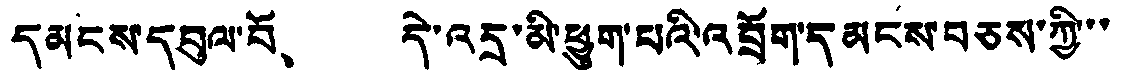དམངས་དབུལ་བོ、 དེ་འདྲ་མི་ཕྱུག་པའི་འབྲོག་དམངས་བཅས་ཀྱི་་
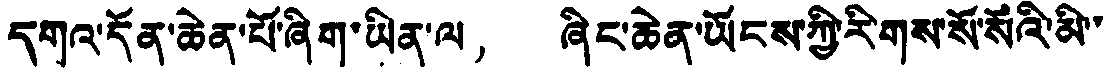དགའ་དོན་ཆེན་པོ་ཞིག་ཡིན་ལ， ཞིང་ཆེན་ཡོངས་ཀྱི་རིགས་སོ་སོའི་མི་་
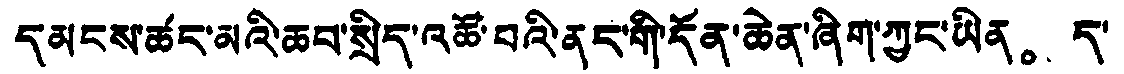དམངས་ཚང་མའི་ཆབ་སྲིད་འཚོ་བའི་ནང་གི་དོན་ཆེན་ཞིག་ཀྱང་ཡིན。 ད་
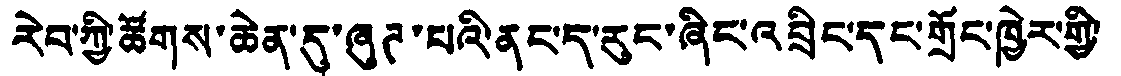རེབ་ཀྱི་ཚོགས་ཆེན་དུ་ཞུཊ་པའི་ནང་ད་རུང་ཞིང་འབྲིང་དང་གྲོང་ཁྱེར་གྱི་
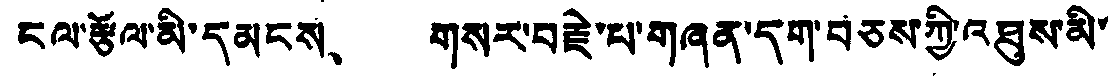ངལ་རྩོལ་མི་དམངས、 གསར་བརྗེ་པ་གཞན་དག་བཅས་ཀྱི་འཐུས་མི་
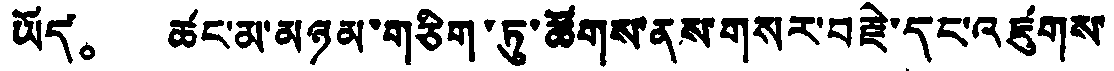ཡོད。 ཚང་མ་མཉམ་གཅིག་ཏུ་ཚོགས་ནས་གསར་བརྗེ་དང་འཛུགས་
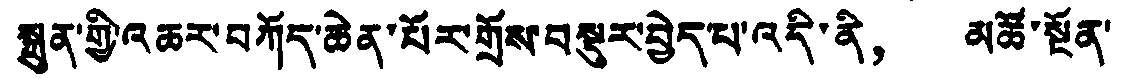སྐྲུན་གྱི་འཆར་བཀོད་ཆེན་པོར་གྲོས་བསྡུར་བྱེད་པ་འདི་ནི， མཚོ་སྔོན་
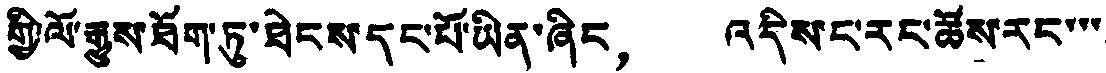གྱི་ལོ་རྒྱུས་ཐོག་ཏུ་ཐེངས་དང་པོ་ཡིན་ཞིང， འདིས་ང་རང་ཚོས་རང་་་
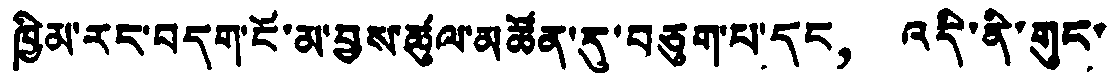ཁྱིམ་རང་བདག་ངོ་མ་བྱས་ཚུལ་མཚོན་རུ་བཅུག་པ་དང， འདི་ནི་གུང་
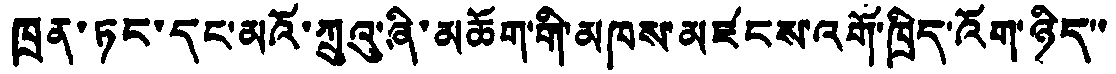ཁྲན་ཏང་དང་མའོ་ཀྲུའུ་ཞི་མཆོག་གི་མཁས་མཛངས་འགོ་ཁྲིད་འོག་ཉིད་་
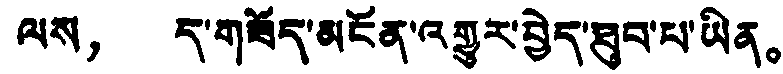ལས， ད་གཟོད་མངོན་འགྱུར་བྱེད་ཐུབ་པ་ཡིན。
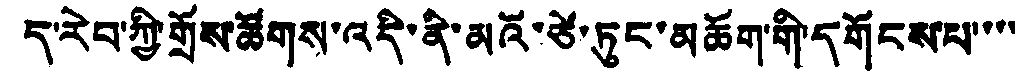ད་རེབ་ཀྱི་གྲོས་ཚོགས་འདི་ནི་མའོ་ཙེ་ཏུང་མཆོག་གི་དགོངས་པ་་་་
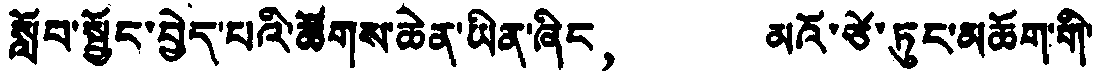སློབ་སྦྱོང་བྱེད་པའི་ཚོགས་ཆེན་ཡིན་ཞིང， མའོ་ཙེ་ཏུང་མཆོག་གི་
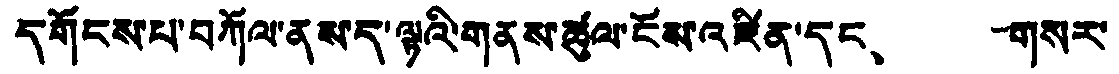དགོངས་པ་བཀོལ་ནས་ད་ལྟའི་གནས་ཚུལ་ངོས་འཛིན་དང、 གསར་
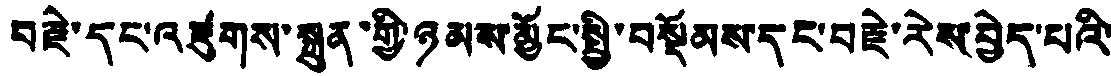བརྗེ་དང་འཛུགས་སྐྲུན་གྱི་ཉམས་མྱོང་སྤྱི་བསྡོམས་དང་བརྗེ་རེས་བྱེད་པའི་
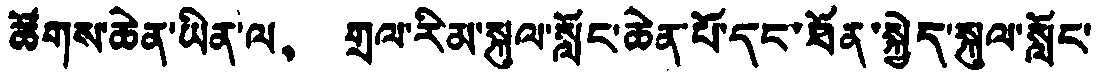ཚོགས་ཆེན་ཡིན་ལ、 གྲལ་རིམ་སྐུལ་སློང་ཆེན་པོ་དང་ཐོན་སྐྱེད་སྐུལ་སློང་
